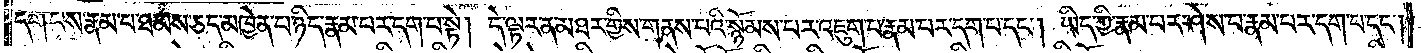དག་པས་རྣམ་པ་ཐམས་ཅད་མཁྱེན་པ་ཉིད་རྣམ་པར་དག་པ་སྟེ། དེ་ལྟར་ན་མཐར་གྱིས་གནས་པའི་སྙོམས་པར་འཇུག་པ་རྣམ་པར་དག་པ་དང༌། ཡིད་ཀྱི་རྣམ་པར་ཤེས་པ་རྣམ་པར་དག་པ་དང༌།
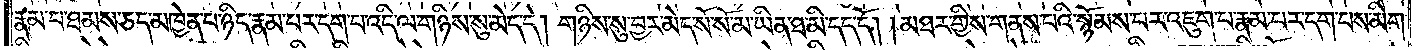རྣམ་པ་ཐམས་ཅད་མཁྱེན་པ་ཉིད་རྣམ་པར་དག་པ་འདི་ལ་གཉིས་སུ་མེད་དེ། གཉིས་སུ་བྱར་མེད་སོ་སོ་མ་ཡིན་ཐ་མི་དད་དོ། །མཐར་གྱིས་གནས་པའི་སྙོམས་པར་འཇུག་པ་རྣམ་པར་དག་པས་མིག་
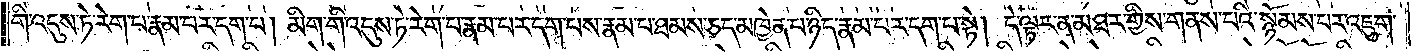གི་འདུས་ཏེ་རེག་པ་རྣམ་པར་དག་པ། མིག་གི་འདུས་ཏེ་རེག་པ་རྣམ་པར་དག་པས་རྣམ་པ་ཐམས་ཅད་མཁྱེན་པ་ཉིད་རྣམ་པར་དག་པ་སྟེ། དེ་ལྟར་ན་མཐར་གྱིས་གནས་པའི་སྙོམས་པར་འཇུག་
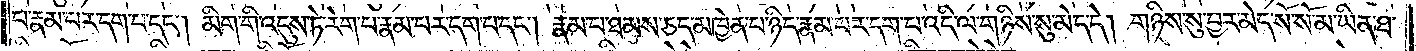པ་རྣམ་པར་དག་པ་དང༌། མིག་གི་འདུས་ཏེ་རེག་པ་རྣམ་པར་དག་པ་དང༌། རྣམ་པ་ཐམས་ཅད་མཁྱེན་པ་ཉིད་རྣམ་པར་དག་པ་འདི་ལ་གཉིས་སུ་མེད་དེ། གཉིས་སུ་བྱར་མེད་སོ་སོ་མ་ཡིན་ཐ་
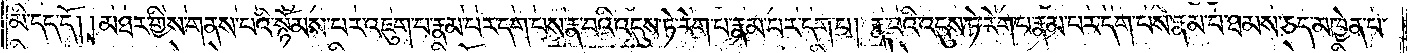མི་དད་དོ། །མཐར་གྱིས་གནས་པའི་སྙོམས་པར་འཇུག་པ་རྣམ་པར་དག་པས་རྣ་བའི་འདུས་ཏེ་རེག་པ་རྣམ་པར་དག་པ། རྣ་བའི་འདུས་ཏེ་རེག་པ་རྣམ་པར་དག་པས་རྣམ་པ་ཐམས་ཅད་མཁྱེན་པ་
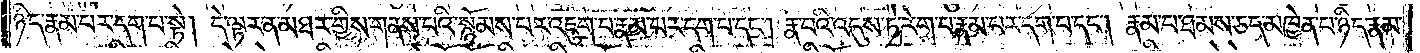ཉིད་རྣམ་པར་དག་པ་སྟེ། དེ་ལྟར་ན་མཐར་གྱིས་གནས་པའི་སྙོམས་པར་འཇུག་པ་རྣམ་པར་དག་པ་དང༌། རྣ་བའི་འདུས་ཏེ་རེག་པ་རྣམ་པར་དག་པ་དང༌། རྣམ་པ་ཐམས་ཅད་མཁྱེན་པ་ཉིད་རྣམ་
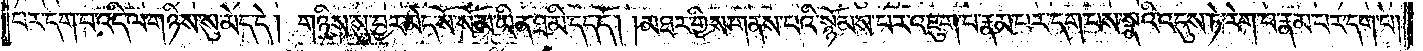པར་དག་པ་འདི་ལ་གཉིས་སུ་མེད་དེ། གཉིས་སུ་བྱར་མེད་སོ་སོ་མ་ཡིན་ཐ་མི་དད་དོ། །མཐར་གྱིས་གནས་པའི་སྙོམས་པར་འཇུག་པ་རྣམ་པར་དག་པས་སྣའི་འདུས་ཏེ་རེག་པ་རྣམ་པར་དག་པ།
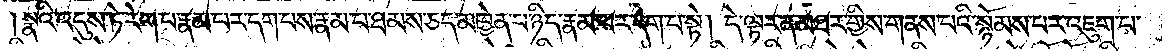སྣའི་འདུས་ཏེ་རེག་པ་རྣམ་པར་དག་པས་རྣམ་པ་ཐམས་ཅད་མཁྱེན་པ་ཉིད་རྣམ་པར་དག་པ་སྟེ། དེ་ལྟར་ན་མཐར་གྱིས་གནས་པའི་སྙོམས་པར་འཇུག་པ་
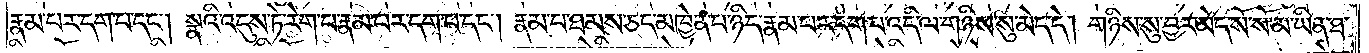རྣམ་པར་དག་པ་དང༌། སྣའི་འདུས་ཏེ་རེག་པ་རྣམ་པར་དག་པ་དང༌། རྣམ་པ་ཐམས་ཅད་མཁྱེན་པ་ཉིད་རྣམ་པར་དག་པ་འདི་ལ་གཉིས་སུ་མེད་དེ། གཉིས་སུ་བྱར་མེད་སོ་སོ་མ་ཡིན་ཐ་
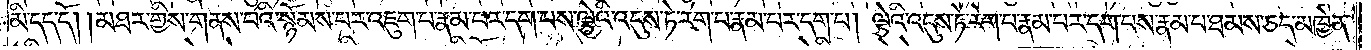མི་དད་དོ། །མཐར་གྱིས་གནས་པའི་སྙོམས་པར་འཇུག་པ་རྣམ་པར་དག་པས་ལྕེའི་འདུས་ཏེ་རེག་པ་རྣམ་པར་དག་པ། ལྕེའི་འདུས་ཏེ་རེག་པ་རྣམ་པར་དག་པས་རྣམ་པ་ཐམས་ཅད་མཁྱེན་
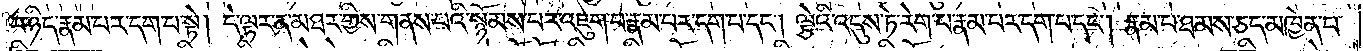པ་ཉིད་རྣམ་པར་དག་པ་སྟེ། དེ་ལྟར་ན་མཐར་གྱིས་གནས་པའི་སྙོམས་པར་འཇུག་པ་རྣམ་པར་དག་པ་དང༌། ལྕེའི་འདུས་ཏེ་རེག་པ་རྣམ་པར་དག་པ་དང༌། རྣམ་པ་ཐམས་ཅད་མཁྱེན་པ་
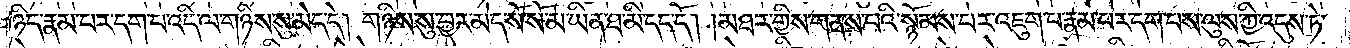ཉིད་རྣམ་པར་དག་པ་འདི་ལ་གཉིས་སུ་མེད་དེ། གཉིས་སུ་བྱར་མེད་སོ་སོ་མ་ཡིན་ཐ་མི་དད་དོ། །མཐར་གྱིས་གནས་པའི་སྙོམས་པར་འཇུག་པ་རྣམ་པར་དག་པས་ལུས་ཀྱི་འདུས་ཏེ་
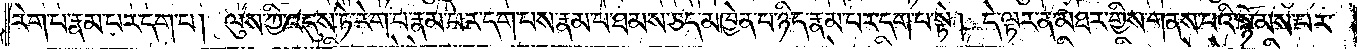རེག་པ་རྣམ་པར་དག་པ། ལུས་ཀྱི་འདུས་ཏེ་རེག་པ་རྣམ་པར་དག་པས་རྣམ་པ་ཐམས་ཅད་མཁྱེན་པ་ཉིད་རྣམ་པར་དག་པ་སྟེ། དེ་ལྟར་ན་མཐར་གྱིས་གནས་པའི་སྙོམས་པར་
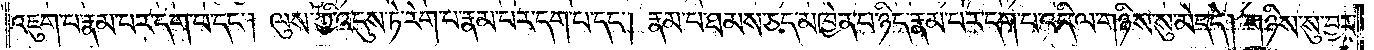འཇུག་པ་རྣམ་པར་དག་པ་དང༌། ལུས་ཀྱི་འདུས་ཏེ་རེག་པ་རྣམ་པར་དག་པ་དང༌། རྣམ་པ་ཐམས་ཅད་མཁྱེན་པ་ཉིད་རྣམ་པར་དག་པ་འདི་ལ་གཉིས་སུ་མེད་དེ། གཉིས་སུ་བྱར་
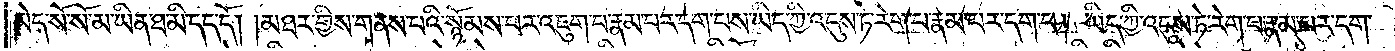མེད་སོ་སོ་མ་ཡིན་ཐ་མི་དད་དོ། །མཐར་གྱིས་གནས་པའི་སྙོམས་པར་འཇུག་པ་རྣམ་པར་དག་པས་ཡིད་ཀྱི་འདུས་ཏེ་རེག་པ་རྣམ་པར་དག་པ། ཡིད་ཀྱི་འདུས་ཏེ་རེག་པ་རྣམ་པར་དག་
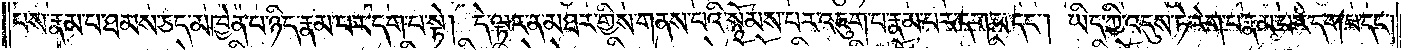པས་རྣམ་པ་ཐམས་ཅད་མཁྱེན་པ་ཉིད་རྣམ་པར་དག་པ་སྟེ། དེ་ལྟར་ན་མཐར་གྱིས་གནས་པའི་སྙོམས་པར་འཇུག་པ་རྣམ་པར་དག་པ་དང༌། ཡིད་ཀྱི་འདུས་ཏེ་རེག་པ་རྣམ་པར་དག་པ་དང༌།
